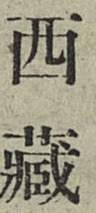起建
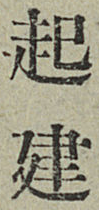設新
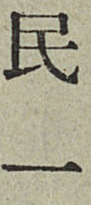西藏
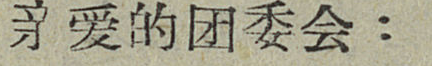亲爱的团委会：
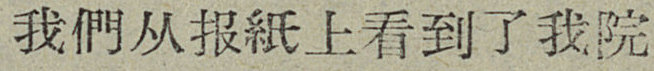我們从报紙上看到了我院
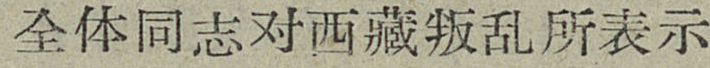全体同志对西藏叛乱所表示
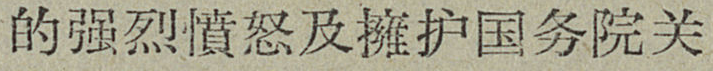的强烈憤怒及擁护国务院关
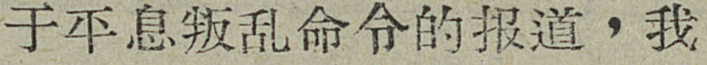于平息叛乱命令的报道，我
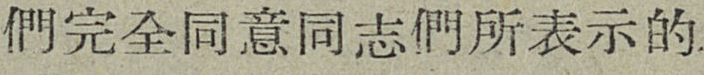們完全同意同志們所表示的
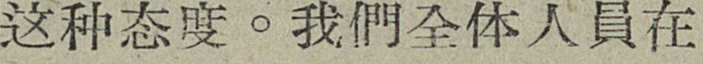这种态度。我們全体人員在
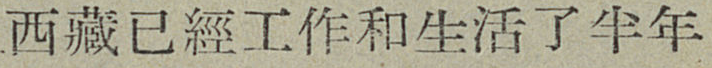西藏已經工作和生活了半年
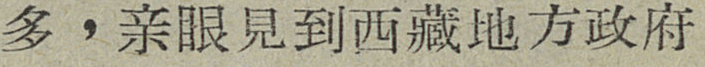多，亲眼見到西藏地方政府
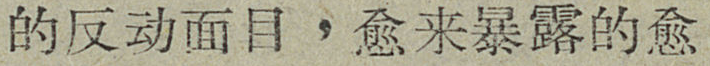的反动面目，愈來暴露的愈
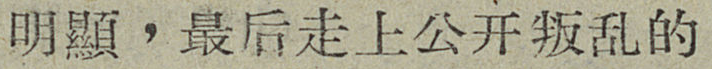明顯，最后走上公开叛乱的
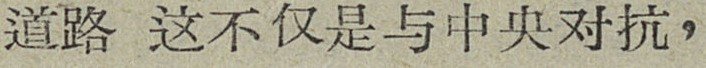道路 这不仅是与中央对抗，
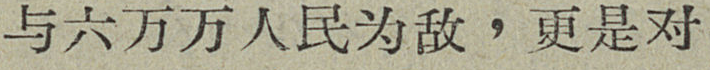与六万万人民为敌，更是对
